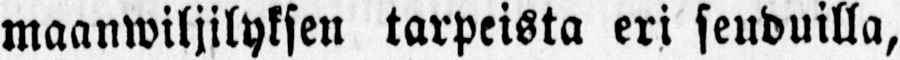maanwiljilyksen tarpeista eri seuduilla,
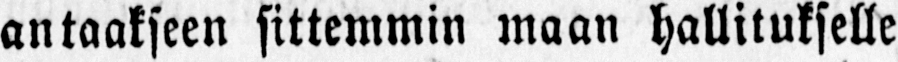antaakseen sittemmin maan hallitukselle
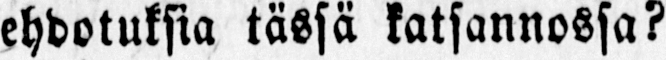ehdotuksia tässä katsannossa?
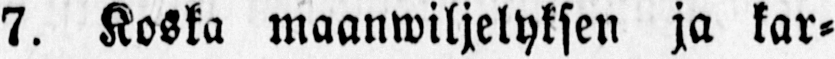7. Koska maanwiljelyksen ja kar-
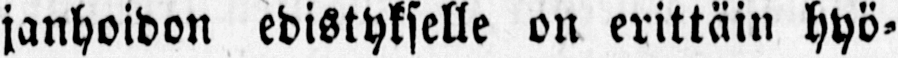janhoidon edistykselle on erittäin hyö-
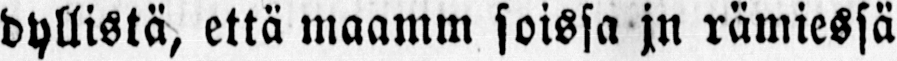dyllistä, että maamm soissa jn rämiessä
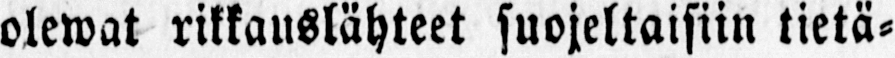olewat rikkauslähteet suojeltaisiin tietä-
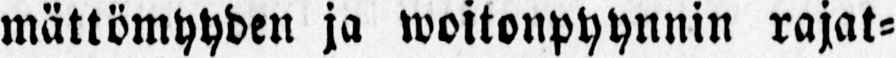mättömyyden ja woitonpyynnin rajat-
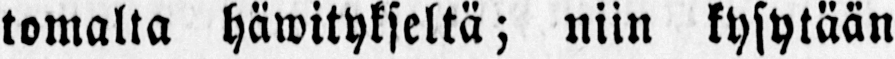tomalta häwitykseltä; niin kysytään
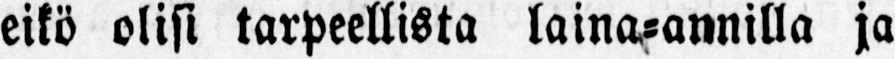eikö olisi tarpeellista laina-annilla ja
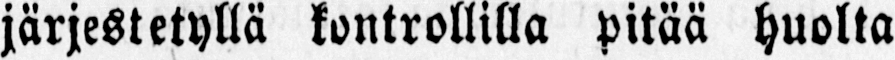järjestetyllä kontrollilla pitää huolta
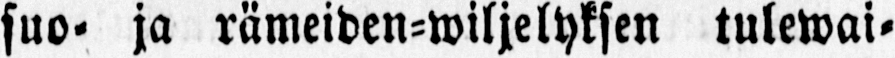suo- ja rämeiden-wiljelyksen tulewai-
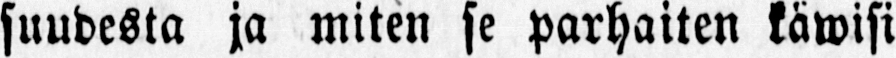suudesta ja miten se parhaiten käwisi
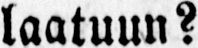laatuun?
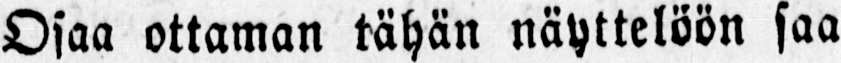Osaa ottaman tähän näyttelöön saa
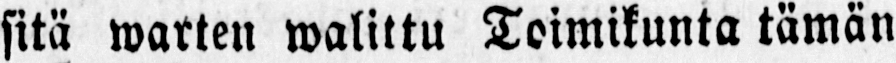sitä warten walittu Toimikunta tämän
